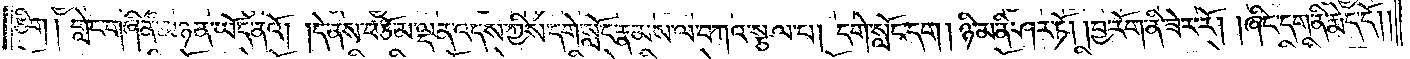ཅིག །གླེང་གཞི་ནི་མཉན་ཡོད་ནའོ། །དེ་ནས་བཅོམ་ལྡན་འདས་ཀྱིས་དགེ་སློང་རྣམས་ལ་བཀའ་སྩལ་པ། དགེ་སློང་དག །ཉི་མ་ནི་ཤར་ཏོ། །བྱ་རོག་ནི་ཟེར་རོ། །ཞིང་དག་ནི་རྨེད་དོ། །
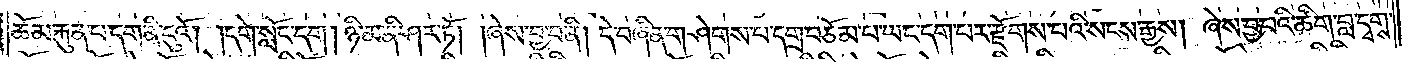ཆོམ་རྐུན་པ་དག་ནི་ངུའོ། །དགེ་སློང་དག། ཉི་མ་ནི་ཤར་ཏོ། །ཞེས་བྱ་བ་ནི། དེ་བཞིན་གཤེགས་པ་དགྲ་བཅོམ་པ་ཡང་དག་པར་རྫོགས་པའི་སངས་རྒྱས། ཞེས་བྱ་བའི་ཚིག་བླ་དྭགས་
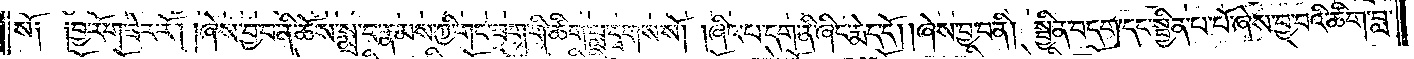སོ། །བྱ་རོག་ཟེར་རོ། །ཞེས་བྱ་བ་ནི་ཆོས་སྨྲ་བ་རྣམས་ཀྱི་གང་ཟག་གི་ཚིག་བླ་དྭགས་སོ། །ཞིང་པ་དག་ནི་ཞིང་རྨེད་དོ། །ཞེས་བྱ་བ་ནི། སྦྱིན་བདག་དང་སྦྱིན་པ་པོ་ཞེས་བྱའི་ཚིག་བླ་
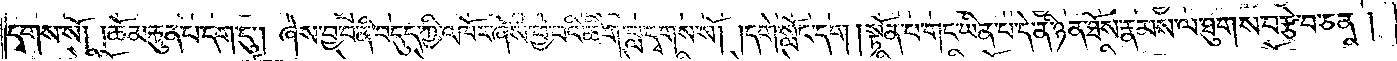དྭགས་སོ། །ཆོམ་རྐུན་པ་དག་དུ། ཞེས་བྱ་བ་ནི་བདུད་ཀྱི་འཁོར་ཞེས་བྱ་བའི་ཚིག་བླ་དྭགས་སོ། །དགེ་སློང་དག །སྟོན་པ་གང་ཡིན་པ་དེ་ནི་ཉན་ཐོས་རྣམས་ལ་ཐུགས་བརྩེ་བ་ཅན།
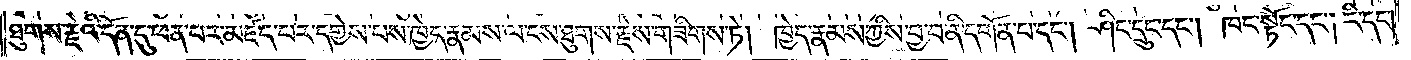ཐུགས་རྗེའི་དོན་དུ་ཕན་པར་མཛད་པར་དགྱེས་པས་ཁྱེད་རྣམས་ལ་ངས་ཐུགས་རྗེ་གཟིགས་ཏེ། ཁྱེད་རྣམས་ཀྱིས་བྱ་བ་ནི་དགོན་པ་དང༌། ཤིང་དྲུང་དང༌། ཁང་སྟོང་དང༌། རི་དང་
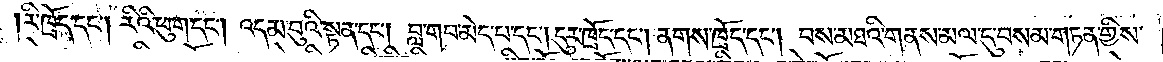རི་ཁྲོད་དང༌། རིའི་ཕུག་དང༌། འདམ་བུའི་སྟན་དང༌། བླ་གབ་མེད་པ་དང༌། དུར་ཁྲོད་དང༌། ནགས་ཁྲོད་དང༌། བས་མཐའི་གནས་མལ་དུ་བསམ་གཏན་གྱིས་
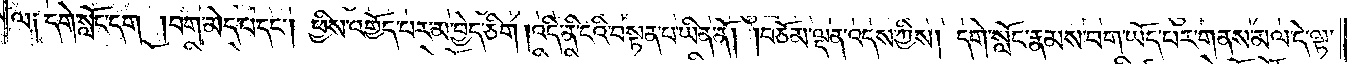ལ༑ དགེ་སློང་དག །བག་མེད་པ་དང༌། ཕྱིས་འགྱོད་པར་མ་བྱེད་ཅིག །འདི་ནི་ངའི་བསྟན་པ་ཡིན་ནོ། །བཅོམ་ལྡན་འདས་ཀྱིས། དགེ་སློང་རྣམས་བག་ཡོད་པར་གནས་མལ་དེ་ལྟ་
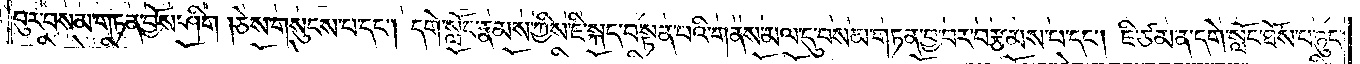བུར་བསམ་གཏན་བྱོས་ཤིག །ཅེས་གསུངས་པ་དང༌། དགེ་སློང་རྣམས་ཀྱིས་ཇི་སྐད་བསྟན་པའི་གནས་མལ་དུ་བསམ་གཏན་བྱ་བར་བརྩམས་པ་དང༌། ཇི་ཙམ་ན་དགེ་སློང་ཐོས་པ་ཉུང་
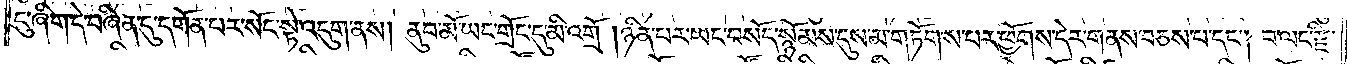ངུ་ཞིག་དེ་བཞིན་དུ་དགོན་པར་སོང་སྟེ་འདུག་ནས། ནུབ་མོ་ཡང་གྲོང་དུ་མི་འགྲོ། །ཉིན་པར་ཡང་བསོད་སྙོམས་དུས་མ་གཏོགས་པར་ཕྱོགས་དེར་གནས་བཅས་པ་དང༌། བ་ལང་རྫི་
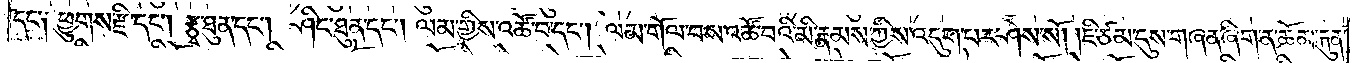དང་༑ ཕྱུགས་རྫི་དང༌། རྩྭ་ཐུན་དང༌། ཤིང་ཐུན་དང༌། ལམ་གྱིས་འཚོ་བ་དང༌། ལམ་གོལ་བས་འཚོ་བའི་མི་རྣམས་ཀྱིས་འདུག་པར་ཤེས་སོ། །ཇི་ཙམ་དུས་གཞན་ཞིག་ན་ཆོམ་རྐུན་
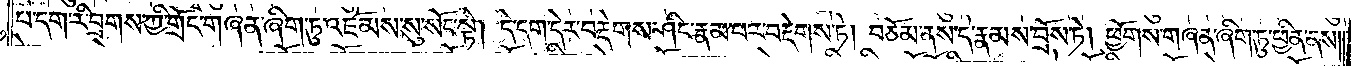པ་དག་རི་བྲགས་ཀྱི་གྲོང་གཞན་ཞིག་ཏུ་འཇོམས་སུ་སོང་སྟེ། དེ་དག་དེར་བརྡེགས་ཤིང་རྣམ་པར་བརྡེགས་ཏེ། བཅོམ་ནས་དེ་རྣམས་བྲོས་ཏེ། ཕྱོགས་གཞན་ཞིག་ཏུ་ཕྱིན་ནས།
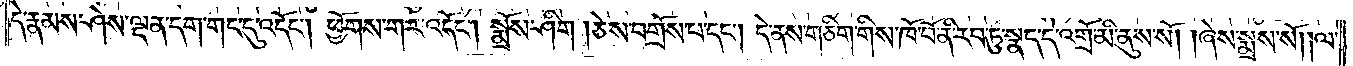དེ་རྣམས་ཤེས་ལྡན་དག་གང་དུ་འདོང༌། ཕྱོགས་གར་འདོང༌། སྨྲོས་ཤིག །ཅེས་བགྲོས་པ་དང༌། དེ་ནས་གཅིག་གིས་ཁོ་བོ་ནི་རབ་ཏུ་སྣད་དེ་འགྲོ་མི་ནུས་སོ། །ཞེས་སྨྲས་སོ། །ལ་
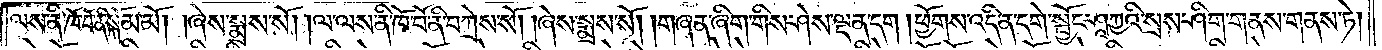ལས་ནི་ཁོ་བོ་ནི་སྐོམ་མོ། །ཞེས་སྨྲས་སོ། །ལ་ལས་ནི་ཁོ་བོ་ནི་བཀྲེས་སོ། །ཞེས་སྨྲས་སོ། །གཞན་ཞིག་གིས་ཤེས་ལྡན་དག །ཕྱོགས་འདི་ན་དགེ་སྦྱོང་ཤཱཀྱའི་སྲས་ཤིག་གནས་གནས་ཏེ།
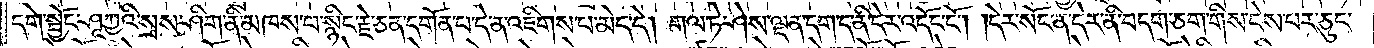དགེ་སྦྱོང་ཤཱཀྱའི་སྲས་ཤིག་ནི་མཁས་པ་སྙིང་རྗེ་ཅན་དགོན་པ་དེ་ན་འཇིགས་པ་མེད་དེ། གལ་ཏེ་ཤེས་ལྡན་དག་ད་ནི་དེར་འདོང་ངོ༌། །དེར་སོང་ན་དེར་ནི་བདག་ཅག་གིས་ངེས་པར་ཅུང་
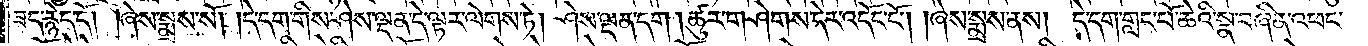ཟད་རྙེད་དོ། །ཞེས་སྨྲས་སོ། །དེ་དག་གིས་ཤེས་ལྡན་དེ་ལྟར་ལེགས་ཏེ། ཤེས་ལྡན་དག །ཚུར་གཤེགས་དེར་འདོང་ངོ༌། །ཞེས་སྨྲས་ནས། དེ་དག་གླང་པོ་ཆེའི་སྣ་བཞིན་འཕང་
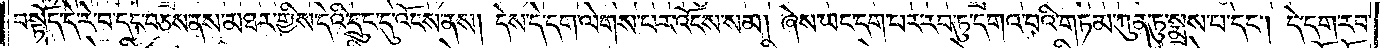བསྟོད་དེ་རེ་བ་དང་བཅས་ནས་མཐར་གྱིས་དེའི་དྲུང་དུ་འོངས་ནས། དེས་དེ་དག་ལེགས་པར་འོངས་སམ། ཞེས་ཡང་དག་པར་རབ་ཏུ་དགའ་བའི་གཏམ་ཀུན་ཏུ་སྨྲས་པ་དང༌། དེ་དག་རབ་
